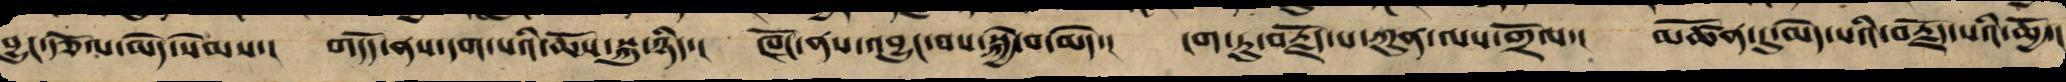བྱུང་རྩོལ་མེད་སེམས་། གདོད་ནས་དག་པའི་ཆོས་སྐུ་ཉིད་། ཁོང་ནས་འབྱུང་བ་སྐྱེ་བ་མེད་། །ག་ཏུ་བརྗོད་པ་ཀུན་ལས་གྲོལ་། མཚོན་དུ་མེད་པའི་བརྗོད་པའི་ཆྱོ་།
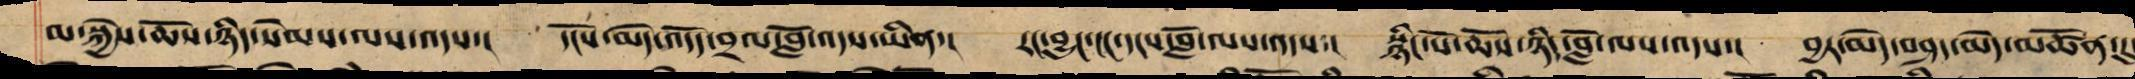མ་སྐྱེས་ཆོས་ཉིད་སེམས་ལས་འདས་། དངོས་མེད་འདོད་བྲལ་བློ་འདས་ཡིན་། རང་བྱུང་ངང་དངས་བློ་ལས་འདས་། སྙིང་པོ་ཆོས་ཉིད་བློ་ལས་འདས་། བྱར་མེད་བཤད་མེད་མཚོན་དུ
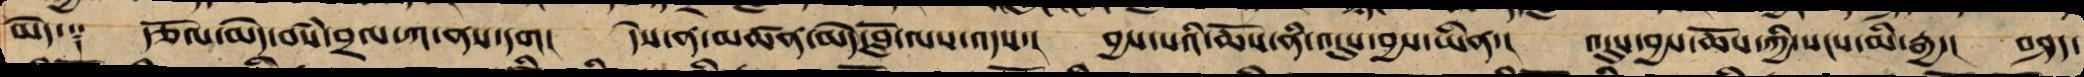མེད་༑ རྩོལ་མེད་བསཾ་བྲལ་ཀ་ནས་དག། དེས་ན་མཚོན་མེད་བློ་ལས་འདས་། བྱས་པའི་ཆོས་ནི་འདུས་བྱས་ཡིན་། འདུས་བྱས་ཆོས་ཀྱིས་སངས་མི་རྒྱ་། བཤད་
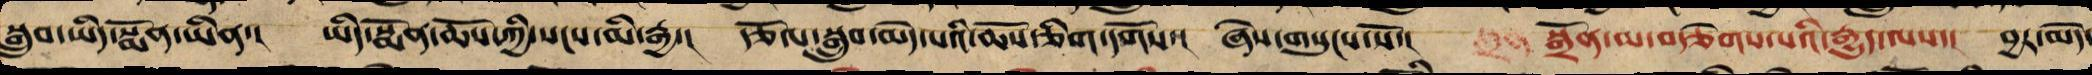སྒྲུབ་ཡིད་སྨོན་ཡིན་། ཡིད་སྨོན་ཆོས་ཀྱིས་སངས་མི་རྒྱ་། རྩོལ་བསྒྲུབ་མེད་པའི་ཆོས་ཅིག་དགོས་། ཞེས་གསུངས་སོ་། སྒྲོན་མ་བརྩེགས་པའི་རྒྱུད་ལས་། བྱར་མེད་
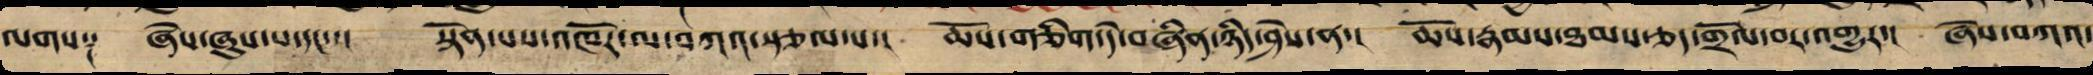ལགས༑ ཞེས་ཞུས་པ་དང་་། སྟོན་པས་འཁོར་ལ་བཀའ་སྩལ་པ་། ཆོས་གཅིག་དེ་བཞིན་ཉིད་ཤེས་ན་། ཆོས་རྣམས་ཐམས་ཅད་གྲོལ་བར་འགྱུར་། ཞེས་བཀའ་
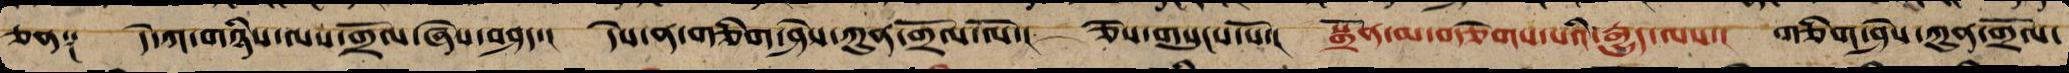ཅན༑ དེ་ཀ་ཉིད་ལས་གྲོལ་ཞེས་བཤད་། དེས་ན་གཅིག་ཤེས་ཀུན་གྲོལ་ལོ་། ཅེས་གསུངས་སོ་། སྒྲོན་མ་བརྩེགས་པའི་རྒྱུད་ལས་། གཅིག་ཤེས་ཀུན་གྲོལ་
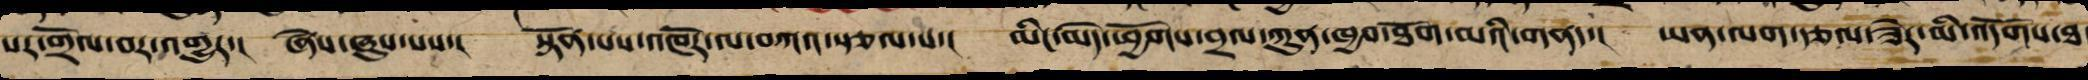སར་གྲོལ་བར་འགྱུར་། ཞེས་ཞུས་པས་། སྟོན་པས་འཁོར་ལ་བཀའ་སྩལ་པ་། མིང་མེད་ཕྱོགས་བྲལ་ཀུན་ཁྱབ་ཐོག་མའི་གནད་། ཡན་ལག་རྩལ་ཟེར་མིང་འདོགས་ཐ་
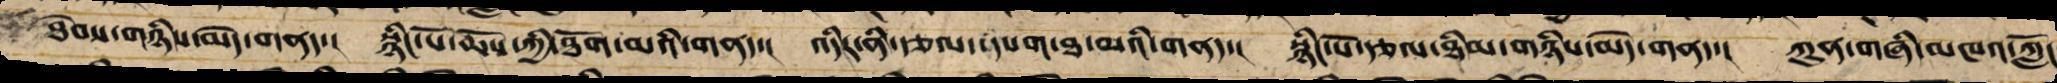ཐེབས་གཉིས་མེད་གནད་། སྙིང་པོ་ཆོས་ཀྱི་ཐོག་མའི་གནད་། འདིར་ནི་རྩལ་དཔག་ཐ་མའི་གནད་། སྙིང་པོར་རྩལ་ཐིམ་གཉིས་མེད་གནད་། ཀུན་གཞི་མཁའ་ཀློང་
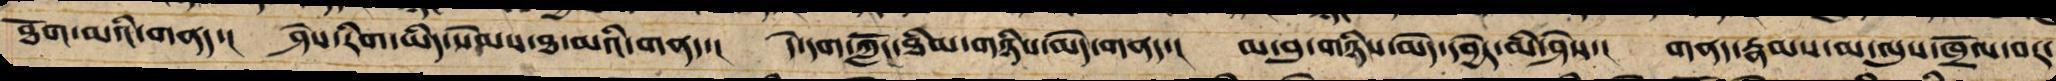ཐོག་མའི་གནད་། རིག་ཤེས་ཡིད་སེམས་ཐ་མའི་གནད་། དེ་དག་ཀློང་ཐིམ་གཉིས་མེད་གནད་། མ་བུ་གཉིས་མེད་དབྱེར་མི་ཤེས་། གནད་རྣམས་མ་ལུས་ཁྲོལ་བར་
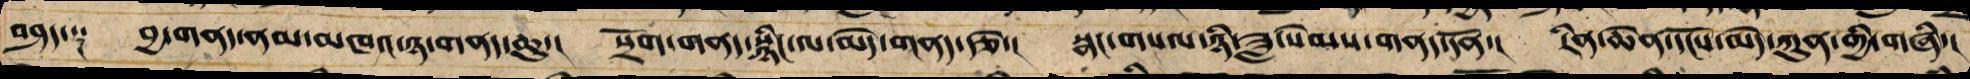བཤད་༑ བྱ་གནད་ནམ་མཁའ་ཉ་གནད་དུ་། སྲོག་གནད་སྙིང་ལ་མེད་གནད་རྩེ་། སྣང་གསལ་ཉི་ཟླ་སེམས་གནད་དོན་། རིན་ཆེན་དངོས་མེད་ཀུན་གྱི་གཞི་།
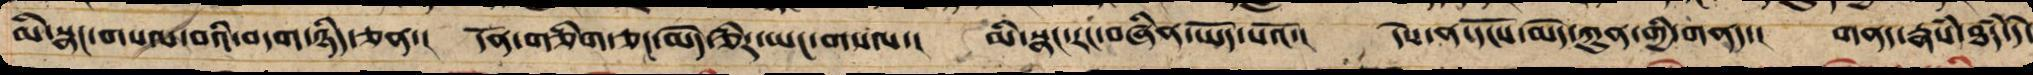མི་སྣང་གསལ་བའི་བདག་ཉིད་ཅན་། དོན་གཅིག་ཅང་མེད་ཅིར་ཡང་གསལ་། མི་སྣང་རང་བཞིན་ཡོད་པའོ་། དེས་ན་དངོས་མེད་ཀུན་གྱི་གནད་། གནད་རྣཾས་ཐཾད་དེ་
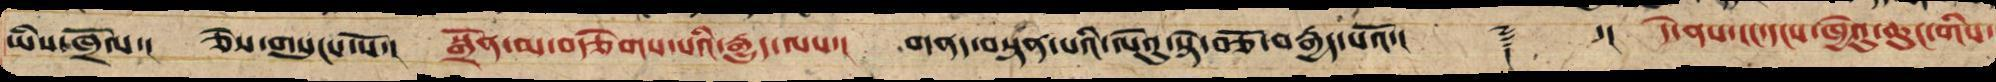ཡིས་ཁྲོལ་། ཅེས་གསུངས་སོ་། སྒྲོན་མ་བརྩེགས་པའི་རྒྱུད་ལས་། གནད་བསྟན་པའི་ལེའུ་སྟེ་བཅོ་བརྒྱད་པའོ་།། ༈ ་།། དེ་ནས་ངང་དངས་ཁྱེའུ་ཆུང་གིས་
